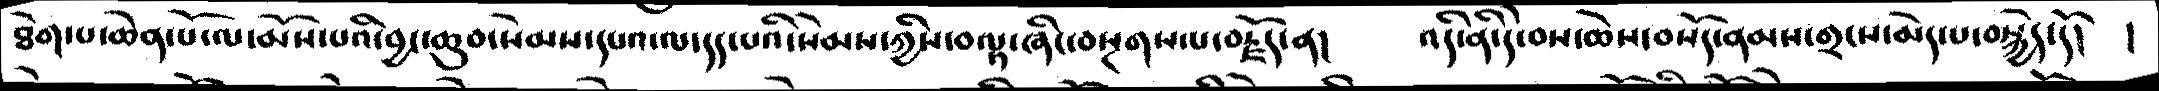ཐེག་པ་ཆེན་པོ་ལ་མོས་པའི་བྱང་ཆུབ་སེམས་དཔའ་ལ་དད་པའི་སེམས་ཀྱིས་བལྟ་ཞིང་བསྔགས་པ་བརྗོད་ན།   འདི་ནི་དེ་བས་ཆེས་བསོད་ནམས་གྲངས་མེད་པ་བསྐྱེད་དོ། །
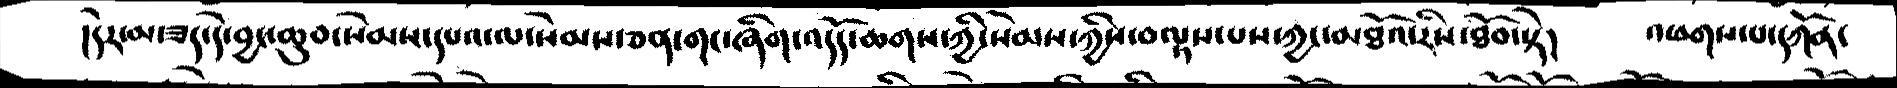།དེར་མ་ཟད་བྱང་ཆུབ་སེམས་དཔའ་ལ་སེམས་ཅན་གང་ཞིག་འདོད་ཆགས་ཀྱི་སེམས་ཀྱིས་བལྟས་པས་ཀྱང་མཐོའ་རིས་ཐོབ་སྟེ།   འཕགས་པ་དཀོན་
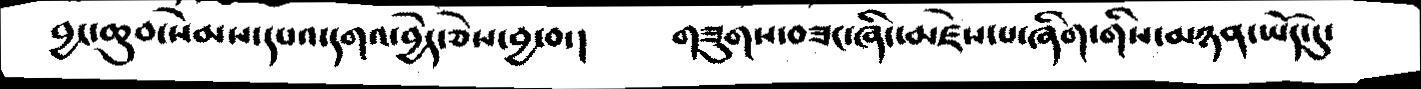བྱང་ཆུབ་སེམས་དཔའ་བྱེད་ཅེས་བྱ་བ་།   གཟུགས་བཟང་ཞིང་མཛེས་པ་ཞིག་གིས་མཉན་ཡོད་དུ་
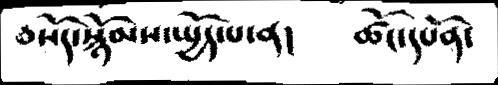བསོད་སྙོམས་སྤྱོད་པ་ན།   ཚོང་དཔོན་
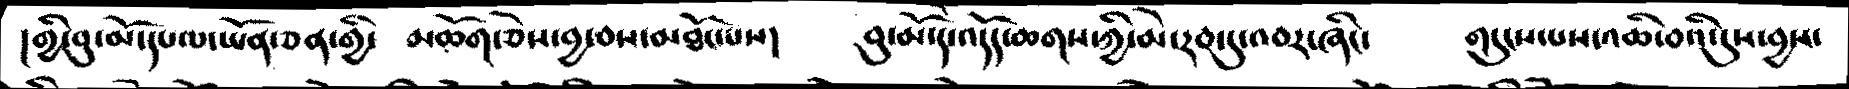།གྱི་བུ་མོ་དཔལ་ཡོན་ཅན་གྱི་ མཆོག་ཅེས་བྱ་བས་མཐོང་པས།   བུ་མོ་དེ་འདོད་ཆགས་ཀྱི་མེ་རབ་ཏུ་འབར་ཞིང་    གདུངས་པས་འཆི་བའི་དུས་བྱས་
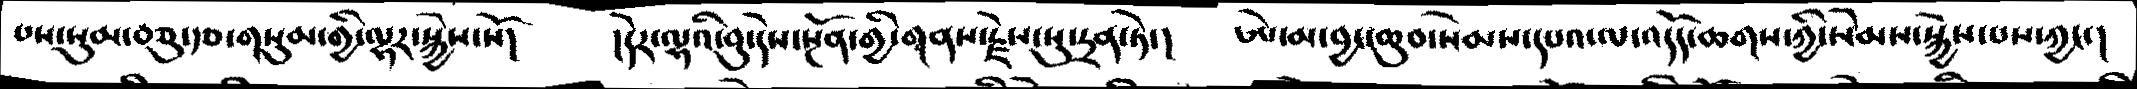པས་སུམ་བཅུ་རྩ་གསུམ་གྱི་ལྷར་སྐྱེས་སོ།   །དེར་ལྷའི་བུ་དེས་སྔོན་གྱི་གནས་རྗེས་སུ་དྲན་ཏེ་།   ཨེ་མ་བྱང་ཆུབ་སེམས་དཔའ་ལ་འདོད་ཆགས་ཀྱི་སེམས་སྐྱེས་པས་ཀྱང་།
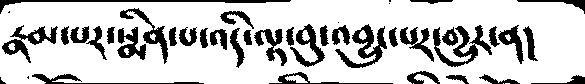རྣམ་པར་སྨིན་པ་འདི་ལྟ་བུ་འབྱུང་པར་གྱུར་ན།
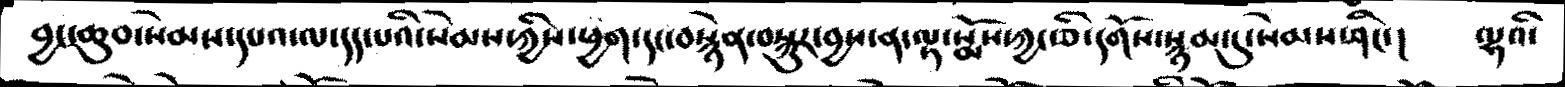བྱང་ཆུབ་སེམས་དཔའ་ལ་དད་པའི་སེམས་ཀྱིས་ཕྱག་དང་བསྙེན་བསྐུར་བྱས་ན་ལྟ་སྨོས་ཀྱང་ཅི་དགོས་སྙམ་དུ་སེམས་ཤིང་།   ལྷའི་
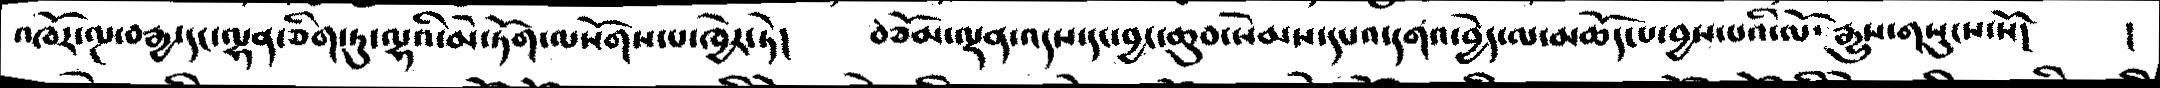འཁོར་ལྔ་བརྒྱ་དང་ལྷན་ཅིག་ཏུ་ལྷའི་མེ་ཏོག་ལསོགས་པ་ཁྱེར་ཏེ།   བཅོམ་ལྡན་འདས་དང་བྱང་ཆུབ་སེམས་དཔའ་དགའ་བྱེད་ལ་མཆོད་པ་བྱས་པའི་ལོ་རྒྱུས་གསུངས་སོ།   །
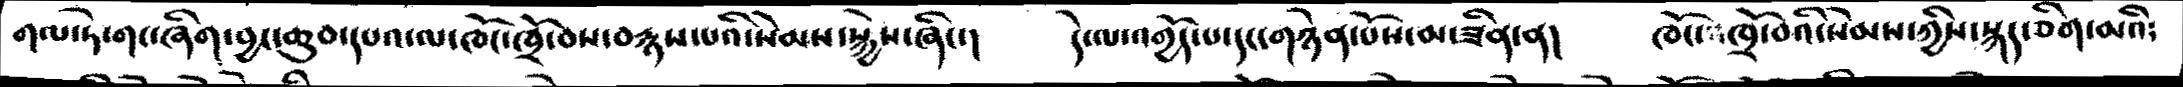གལ་ཏེ་གང་ཞིག་བྱང་ཆུབ་དཔའ་ལ་ཁོང་ཁྲོ་བས་བརྙས་པའི་སེམས་སྐྱེས་ཞིང་།   དེ་ལ་འགྱོད་པ་དང་གཉེན་པོས་མ་ཟིན་ན།  ཁོང་ཁྲོ་བའི་སེམས་ཀྱིས་སྐད་ཅིག་མའི༴
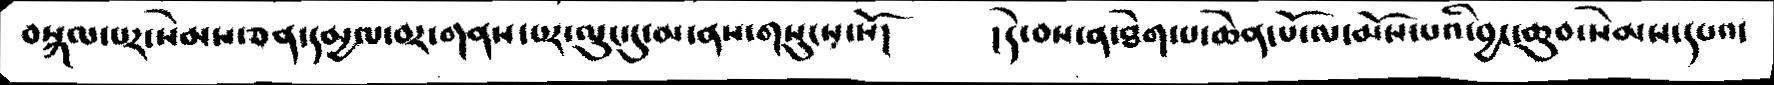བསྐལ་པར་སེམས་ཅན་དམྱལ་བར་གནས་པར་ལུང་དུ་མ་ནས་གསུངས་སོ།     །དེ་བས་ན་ཐེག་པ་ཆེན་པོ་ལ་མོས་པའི་བྱང་ཆུབ་སེམས་དཔའ་
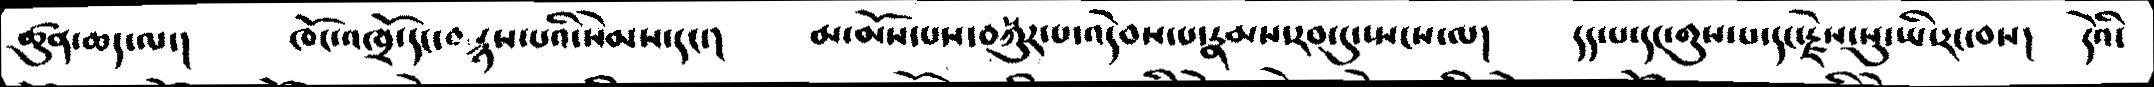ཚུན་ཆད་ལ་།   ཁོང་འཁྲོ་དང་བརྙས་པའི་སེམས་དང་།  མ་མོས་པས་བསྐུར་པ་འདེབས་པ་རྣམས་རབ་དུ་སྤངས་ལ།   དད་པ་དང་གུས་པ་དང་རྗེས་སུ་ཡི་རང་བས།   དེའི་
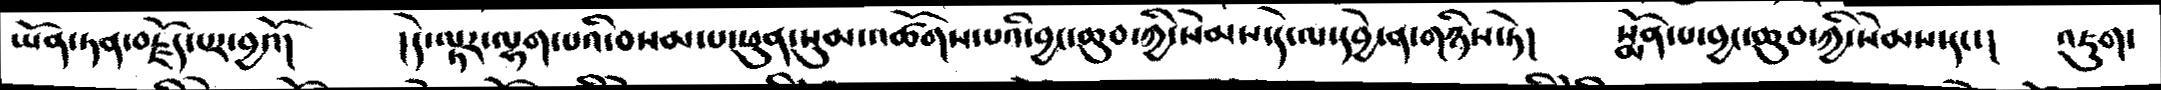ཡོན་ཏན་བརྗོད་པར་བྱའོ།   །དེ་ལྟར་ལྷག་པའི་བསམ་པ་ཕུན་སུམ་འཚོགས་པའི་བྱང་ཆུབ་ཀྱི་སེམས་དེ་ལ་དབྱེ་ན་གཉིས་ཏེ།   སྨོན་པ་བྱང་ཆུབ་ཀྱི་སེམས་དང་།   འཇུག་
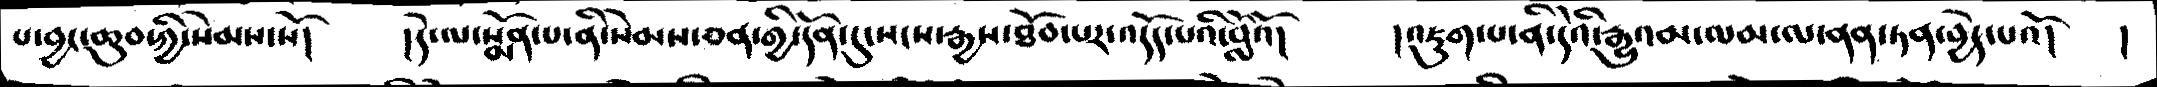པ་བྱང་ཆུབ་ཀྱི་སེམས་སོ།   །དེ་ལ་སྨོན་པ་ནི་སེམས་ཅན་གྱི་དོན་དུ་སངས་རྒྱས་ཐོབ་པར་འདོད་པའི་བློའོ།   །འཇུག་པ་ནི་དེའི་རྒྱུའམ་ལམ་ལ་ནན་ཏན་བྱེད་པའོ།   །
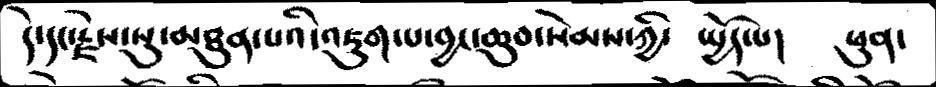དེ་དང་རྗེས་སུ་མཐུན་པའི་འཇུག་པ་བྱང་ཆུབ་སེམས་ཀྱི་  སྤྱོད་པ།     ཕུན་
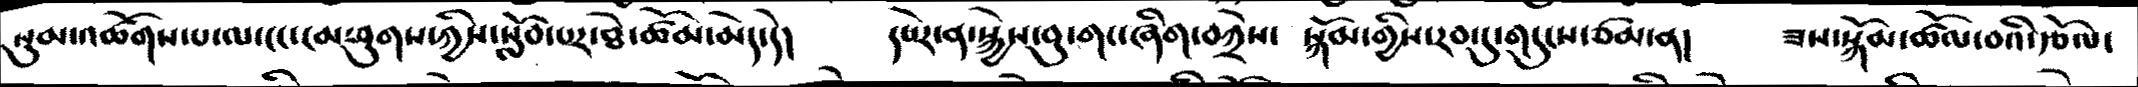སུམ་འཚོགས་པ་ལ་ངང་ངམ་ཤུགས་ཀྱིས་སློབ་པར་ཐེ་ཚོམ་མེད་དེ་།   དཔེར་ན་སྐྱེས་བུ་གང་ཞིག་བཀྲེས་ སྐོམ་གྱིས་རབ་དུ་གདུངས་ཙམ་ན།  ཟས་སྐོམ་ཚོལ་བའི་རྩོལ་
